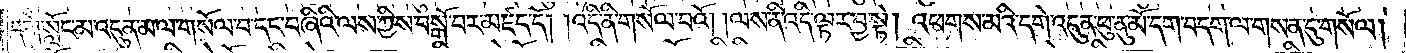དགེ་སློང་མ་འདུན་མ་ལ་གསོལ་བ་དང་བཞིའི་ལས་ཀྱིས་བསྒོ་བར་མཛད་དོ། །འདི་ནི་གསོལ་བའོ། །ལས་ནི་འདི་ལྟར་བྱ་སྟེ། འཕགས་མའི་དགེ་འདུན་ཕུ་ནུ་མོ་དག་བདག་ལ་གསན་དུ་གསོལ།
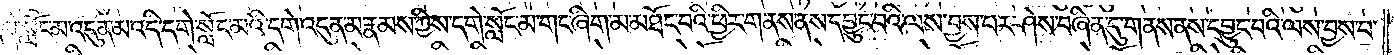དགེ་སློང་མ་འདུན་མ་འདི་དགེ་སློང་མའི་དགེ་འདུན་མ་རྣམས་ཀྱིས་དགེ་སློང་མ་གང་ཞིག་མ་མཐོང་བའི་ཕྱིར་གནས་ནས་དབྱུང་བའི་ལས་བྱས་པར་ཤེས་བཞིན་དུ་གནས་ནས་དབྱུང་བའི་ལས་བྱས་པ་
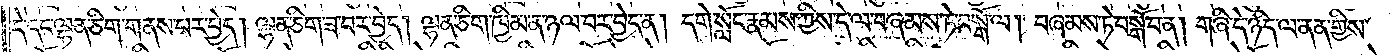དེ་དང་ལྷན་ཅིག་གནས་པར་བྱེད། ལྷན་ཅིག་ཟ་བར་བྱེད། ལྷན་ཅིག་ཁྱིམ་ན་ཉལ་བར་བྱེད་ན། དགེ་སློང་རྣམས་ཀྱིས་དེ་ལ་བཞམས་ཏེ་བསྒོ་ལ། བཞམས་ཏེ་བསྒོ་བ་ན། གཞི་དེ་ཉིད་ལ་ནན་གྱིས་
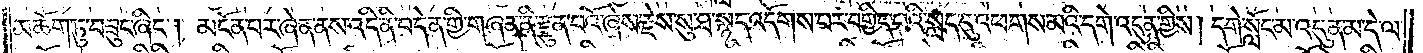མཆོག་ཏུ་བཟུང་ཞིང༌། མངོན་པར་ཞེན་ནས་འདི་ནི་བདེན་གྱི་གཞན་ནི་རྫུན་པའོ་ཞེས་རྗེས་སུ་ཐ་སྙད་འདོགས་པར་བགྱིད་པའི་སླད་དུ་འཕགས་མའི་དགེ་འདུན་གྱིས། དགེ་སློང་མ་འདུན་མ་དེ་ལ་
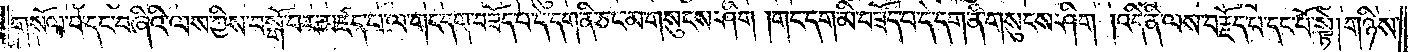གསོལ་བ་དང་བཞིའི་ལས་ཀྱིས་བསྒོ་བར་མཛད་པ་གང་དག་བཟོད་པ་དེ་དག་ནི་ཅང་མ་གསུངས་ཤིག །གང་དག་མི་བཟོད་པ་དེ་དག་ནི་གསུངས་ཤིག །འདི་ནི་ལས་བརྗོད་པ་དང་པོ་སྟེ། གཉིས་
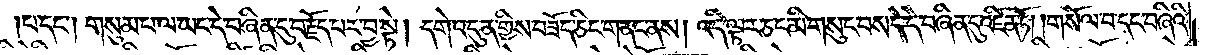།པ་དང༌། གསུམ་པ་ལ་ཡང་དེ་བཞིན་དུ་བརྗོད་པར་བྱ་སྟེ། དགེ་འདུན་གྱིས་བཟོད་ཅིང་གནང་ནས། འདི་ལྟར་ཅང་མི་གསུང་བས་དེ་དེ་བཞིན་དུ་འཛིན་ཏོ། །གསོལ་བ་དང་བཞིའི་
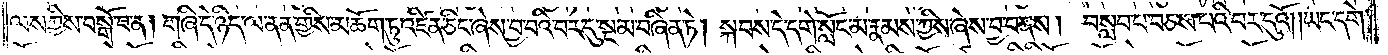ལས་ཀྱིས་བསྒོ་བ་ན། གཞི་དེ་ཉིད་ལ་ནན་གྱིས་མཆོག་ཏུ་འཛིན་ཅིང་ཞེས་བྱ་བའི་བར་དུ་སྔ་མ་བཞིན་ཏེ། སྐབས་དེ་དགེ་སློང་མ་རྣམས་ཀྱིས་ཞེས་བྱ་བ་ནས། བསླབ་པ་བཅས་པའི་བར་དུའོ། །ཡང་དགེ་
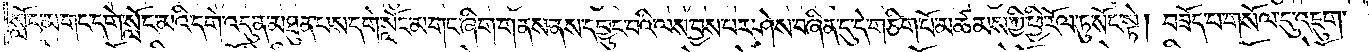སློང་མ་གང་དགེ་སློང་མའི་དགེ་འདུན་མཐུན་པས་དགེ་སློང་མ་གང་ཞིག་གནས་ནས་དབྱུང་བའི་ལས་བྱས་པར་ཤེས་བཞིན་དུ་དེ་གཅིག་པོ་མཚམས་ཀྱི་ཕྱི་རོལ་ཏུ་སོང་སྟེ། བཟོད་པ་གསོལ་དུ་འཇུག་
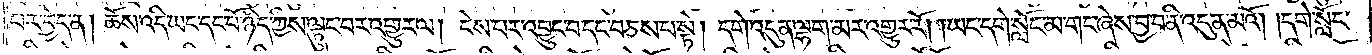པར་བྱེད་ན། ཆོས་འདི་ཡང་དང་པོ་ཉིད་ཀྱིས་ལྟུང་བར་འགྱུར་ལ། ངེས་པར་འབྱུང་བ་དང་བཅས་པ་སྟེ། དགེ་འདུན་ལྷག་མར་འགྱུར་རོ། །ཡང་དགེ་སློང་མ་གང་ཞེས་བྱ་བ་ནི་འདུན་མའོ། །དགེ་སློང་
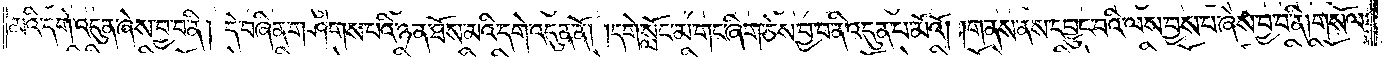མའི་དགེ་འདུན་ཞེས་བྱ་བ་ནི། དེ་བཞིན་གཤེགས་པའི་ཉན་ཐོས་མའི་དགེ་འདུན་ནོ། །དགེ་སློང་མ་གང་ཞིག་ཅེས་བྱ་བ་ནི་འདུན་པ་མའོ། །གནས་ནས་དབྱུང་བའི་ལས་བྱས་པ་ཞེས་བྱ་བ་ནི། གསོལ་
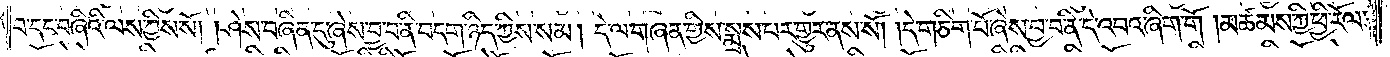བ་དང་བཞིའི་ལས་ཀྱིས་སོ། །ཤེས་བཞིན་དུ་ཞེས་བྱ་བ་ནི་བདག་ཉིད་ཀྱིས་སམ། དེ་ལ་གཞན་གྱིས་སྨྲས་པར་གྱུར་ནས་སོ། །དེ་གཅིག་པོ་ཞེས་བྱ་བ་ནི་དེ་འབའ་ཞིག་གོ །མཚམས་ཀྱི་ཕྱི་རོལ་
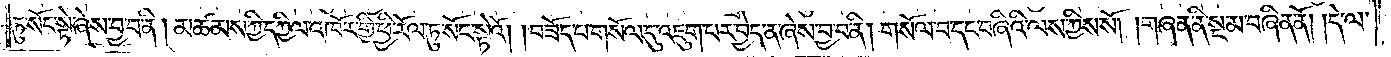ཏུ་སོང་སྟེ་ཞེས་བྱ་བ་ནི། མཚམས་ཀྱི་དཀྱིལ་འཁོར་གྱི་ཕྱི་རོལ་ཏུ་སོང་སྟེའོ། །བཟོད་པ་གསོལ་དུ་འཇུག་པར་བྱེད་ན་ཞེས་བྱ་བ་ནི། གསོལ་བ་དང་བཞིའི་ལས་ཀྱིས་སོ། །གཞན་ནི་སྔ་མ་བཞིན་ནོ། །དེ་ལ་
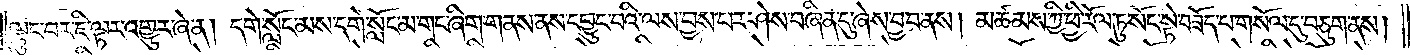ལྟུང་བར་ཇི་ལྟར་འགྱུར་ཞེ་ན། དགེ་སློང་མས་དགེ་སློང་མ་གང་ཞིག་གནས་ནས་དབྱུང་བའི་ལས་བྱས་པར་ཤེས་བཞིན་དུ་ཞེས་བྱ་བ་ནས། མཚམས་ཀྱི་ཕྱི་རོལ་ཏུ་སོང་སྟེ་བཟོད་པ་གསོལ་དུ་བཅུག་ནས།
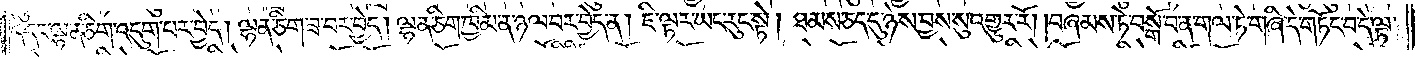དེ་དང་ལྷན་ཅིག་འདུག་པར་བྱེད། ལྷན་ཅིག་ཟ་བར་བྱེད། ལྷན་ཅིག་ཁྱིམ་ན་ཉལ་བར་བྱེད་ན། ཇི་ལྟར་ཡང་རུང་སྟེ། ཐམས་ཅད་དུ་ཉེས་བྱས་སུ་འགྱུར་རོ། །བཞམས་ཏེ་བསྒོ་བ་ན་གལ་ཏེ་གཞི་དེ་གཏོང་བ་དེ་ལྟ་
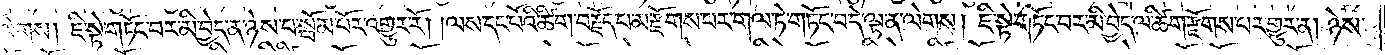ན་ལེགས། ཇི་སྟེ་གཏོང་བར་མི་བྱེད་ན་ཉེས་པ་སྦོམ་པོར་འགྱུར་རོ། །ལས་དང་པོའི་ཚིག་བརྗོད་པ་མ་རྫོགས་པར་གལ་ཏེ་གཏོང་བ་དེ་ལྟ་ན་ལེགས། ཇི་སྟེ་གཏོང་བར་མི་བྱེད་ལ་ཚིག་རྫོགས་པར་གྱུར་ན། ཉེས་
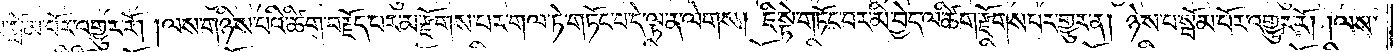པ་སྦོམ་པོར་འགྱུར་རོ། །ལས་གཉིས་པའི་ཚིག་བརྗོད་པར་མ་རྫོགས་པར་གལ་ཏེ་གཏོང་བ་དེ་ལྟ་ན་ལེགས། ཇི་སྟེ་གཏོང་བར་མི་བྱེད་ལ་ཚིག་རྫོགས་པར་གྱུར་ན། ཉེས་པ་སྦོམ་པོར་འགྱུར་རོ། །ལས་
